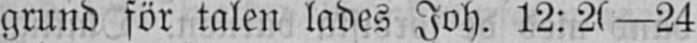grund för talen lades Joh. 12: 20—24
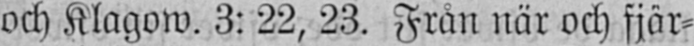och Klagow. 3: 22, 23. Från när och fjär-
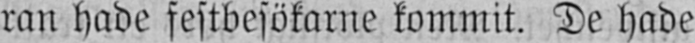ran hade festbesökarne kommit. De hade
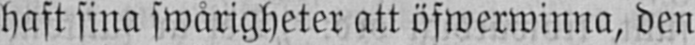haft sina swårigheter att öfwerwinna, den
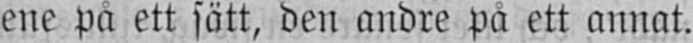ene på ett sätt, den andre på ett annat.
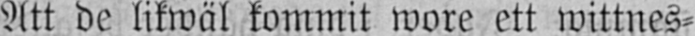Att de likwäl kommit wore ett wittnes-
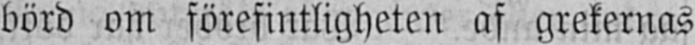börd om förefintligheten af grekernas
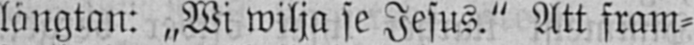längtan: „Wi wilja se Jesus." Att fram-
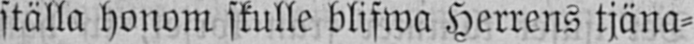ställa honom skulle blifwa Herrens tjäna-
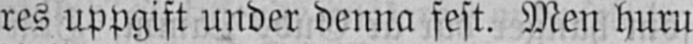res uppgift under denna fest. Men huru
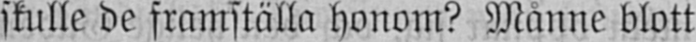skulle de framställa honom? Månne blott
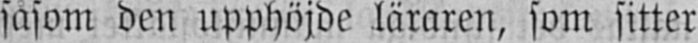såsom den upphöjde läraren, som sitter
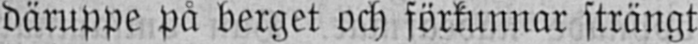däruppe på berget och förkunnar strängt
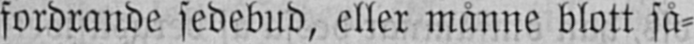fordrande sedebud, eller månne blott så-
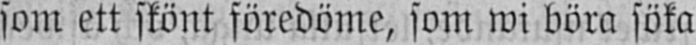som ett skönt föredöme, som wi böra söka
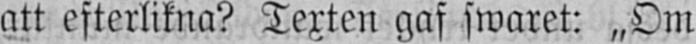att efterlikna? Texten gaf swaret: „Om
